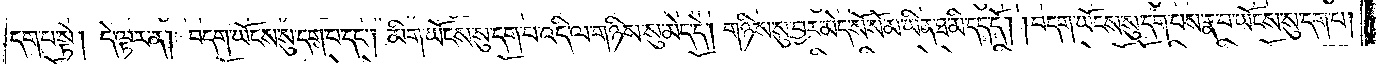དག་པ་སྟེ། དེ་ལྟར་ན། བདག་ཡོངས་སུ་དག་པ་དང༌། མིག་ཡོངས་སུ་དག་པ་འདི་ལ་གཉིས་སུ་མེད་དེ། གཉིས་སུ་བྱར་མེད་སོ་སོ་མ་ཡིན་ཐ་མི་དད་དོ། །བདག་ཡོངས་སུ་དག་པས་རྣ་བ་ཡོངས་སུ་དག་པ།
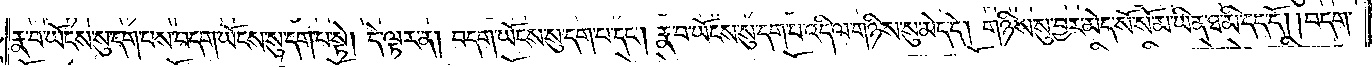རྣ་བ་ཡོངས་སུ་དག་པས་བདག་ཡོངས་སུ་དག་པ་སྟེ། དེ་ལྟར་ན། བདག་ཡོངས་སུ་དག་པ་དང༌། རྣ་བ་ཡོངས་སུ་དག་པ་འདི་ལ་གཉིས་སུ་མེད་དེ། གཉིས་སུ་བྱར་མེད་སོ་སོ་མ་ཡིན་ཐ་མི་དད་དོ། །བདག་
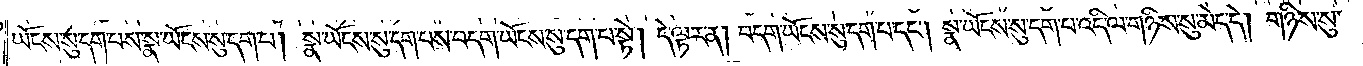ཡོངས་སུ་དག་པས་སྣ་ཡོངས་སུ་དག་པ། སྣ་ཡོངས་སུ་དག་པས་བདག་ཡོངས་སུ་དག་པ་སྟེ། དེ་ལྟར་ན། བདག་ཡོངས་སུ་དག་པ་དང༌། སྣ་ཡོངས་སུ་དག་པ་འདི་ལ་གཉིས་སུ་མེད་དེ། གཉིས་སུ་
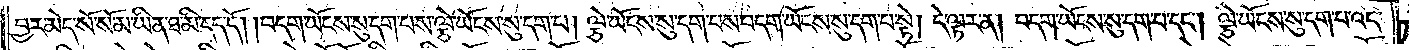བྱར་མེད་སོ་སོ་མ་ཡིན་ཐ་མི་དད་དོ། །བདག་ཡོངས་སུ་དག་པས་ལྕེ་ཡོངས་སུ་དག་པ། ལྕེ་ཡོངས་སུ་དག་པས་བདག་ཡོངས་སུ་དག་པ་སྟེ། དེ་ལྟར་ན། བདག་ཡོངས་སུ་དག་པ་དང༌། ལྕེ་ཡོངས་སུ་དག་པ་འདི་
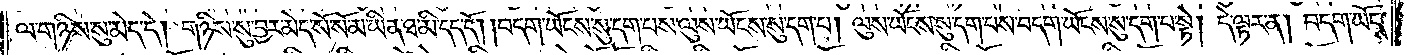ལ་གཉིས་སུ་མེད་དེ། གཉིས་སུ་བྱར་མེད་སོ་སོ་མ་ཡིན་ཐ་མི་དད་དོ། ། བདག་ཡོངས་སུ་དག་པས་ལུས་ཡོངས་སུ་དག་པ། ལུས་ཡོངས་སུ་དག་པས་བདག་ཡོངས་སུ་དག་པ་སྟེ། དེ་ལྟར་ན། བདག་ཡོངས་
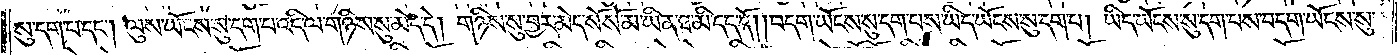སུ་དག་པ་དང༌། ལུས་ཡོངས་སུ་དག་པ་འདི་ལ་གཉིས་སུ་མེད་དེ། གཉིས་སུ་བྱར་མེད་སོ་སོ་མ་ཡིན་ཐ་མི་དད་དོ། །བདག་ཡོངས་སུ་དག་པས་ཡིད་ཡོངས་སུ་དག་པ། ཡིད་ཡོངས་སུ་དག་པས་བདག་ཡོངས་སུ་
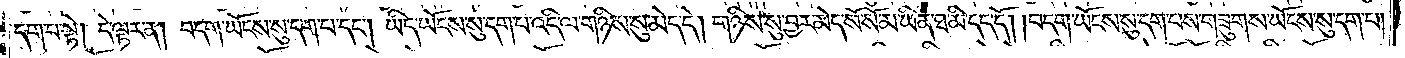དག་པ་སྟེ། དེ་ལྟར་ན། བདག་ཡོངས་སུ་དག་པ་དང༌། ཡིད་ཡོངས་སུ་དག་པ་འདི་ལ་གཉིས་སུ་མེད་དེ། གཉིས་སུ་བྱར་མེད་སོ་སོ་མ་ཡིན་ཐ་མི་དད་དོ། །བདག་ཡོངས་སུ་དག་པས་གཟུགས་ཡོངས་སུ་དག་པ།
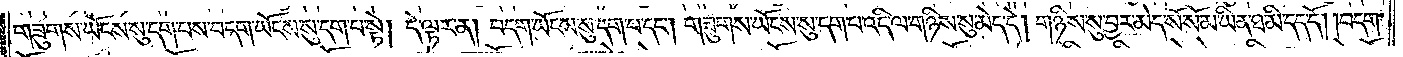གཟུགས་ཡོངས་སུ་དག་པས་བདག་ཡོངས་སུ་དག་པ་སྟེ། དེ་ལྟར་ན། བདག་ཡོངས་སུ་དག་པ་དང༌། གཟུགས་ཡོངས་སུ་དག་པ་འདི་ལ་གཉིས་སུ་མེད་དེ། གཉིས་སུ་བྱར་མེད་སོ་སོ་མ་ཡིན་ཐ་མི་དད་དོ། །བདག་
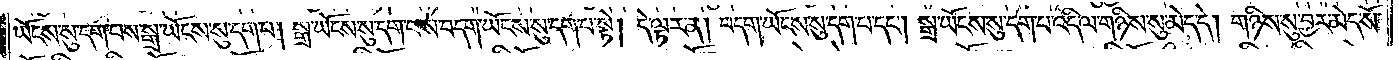ཡོངས་སུ་དག་པས་སྒྲ་ཡོངས་སུ་དག་པ། སྒྲ་ཡོངས་སུ་དག་པས་བདག་ཡོངས་སུ་དག་པ་སྟེ། དེ་ལྟར་ན། བདག་ཡོངས་སུ་དག་པ་དང༌། སྒྲ་ཡོངས་སུ་དག་པ་འདི་ལ་གཉིས་སུ་མེད་དེ། གཉིས་སུ་བྱར་མེད་སོ་
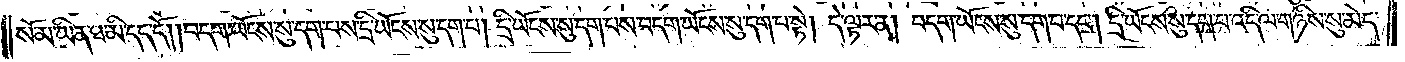སོ་མ་ཡིན་ཐ་མི་དད་དོ། །བདག་ཡོངས་སུ་དག་པས་དྲི་ཡོངས་སུ་དག་པ། དྲི་ཡོངས་སུ་དག་པས་བདག་ཡོངས་སུ་དག་པ་སྟེ། དེ་ལྟར་ན། བདག་ཡོངས་སུ་དག་པ་དང༌། དྲི་ཡོངས་སུ་དག་པ་འདི་ལ་གཉིས་སུ་མེད་
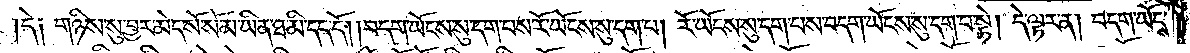དེ༑ གཉིས་སུ་བྱར་མེད་སོ་སོ་མ་ཡིན་ཐ་མི་དད་དོ། །བདག་ཡོངས་སུ་དག་པས་རོ་ཡོངས་སུ་དག་པ། རོ་ཡོངས་སུ་དག་པས་བདག་ཡོངས་སུ་དག་པ་སྟེ། དེ་ལྟར་ན། བདག་ཡོངས་
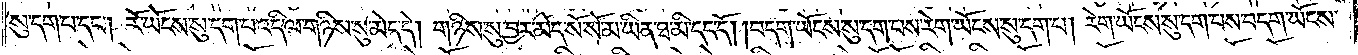སུ་དག་པ་དང༌། རོ་ཡོངས་སུ་དག་པ་འདི་ལ་གཉིས་སུ་མེད་དེ། གཉིས་སུ་བྱར་མེད་སོ་སོ་མ་ཡིན་ཐ་མི་དད་དོ། །བདག་ཡོངས་སུ་དག་པས་རེག་ཡོངས་སུ་དག་པ། རེག་ཡོངས་སུ་དག་པས་བདག་ཡོངས་
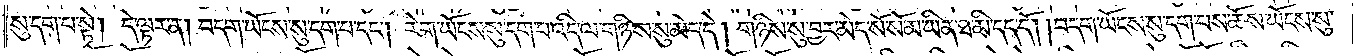སུ་དག་པ་སྟེ། དེ་ལྟར་ན། བདག་ཡོངས་སུ་དག་པ་དང༌། རེག་ཡོངས་སུ་དག་པ་འདི་ལ་གཉིས་སུ་མེད་དེ། གཉིས་སུ་བྱར་མེད་སོ་སོ་མ་ཡིན་ཐ་མི་དད་དོ། །བདག་ཡོངས་སུ་དག་པས་ཆོས་ཡོངས་སུ་
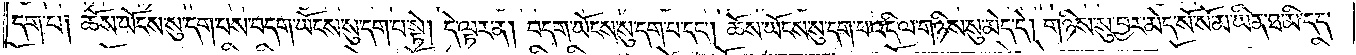དག་པ། ཆོས་ཡོངས་སུ་དག་པས་བདག་ཡོངས་སུ་དག་པ་སྟེ། དེ་ལྟར་ན། བདག་ཡོངས་སུ་དག་པ་དང༌། ཆོས་ཡོངས་སུ་དག་པ་འདི་ལ་གཉིས་སུ་མེད་དེ། གཉིས་སུ་བྱར་མེད་སོ་སོ་མ་ཡིན་ཐ་མི་དད་
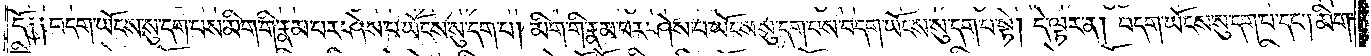དོ༑ ༑བདག་ཡོངས་སུ་དག་པས་མིག་གི་རྣམ་པར་ཤེས་པ་ཡོངས་སུ་དག་པ། མིག་གི་རྣམ་པར་ཤེས་པ་ཡོངས་སུ་དག་པས་བདག་ཡོངས་སུ་དག་པ་སྟེ། དེ་ལྟར་ན། བདག་ཡོངས་སུ་དག་པ་དང༌། མིག་
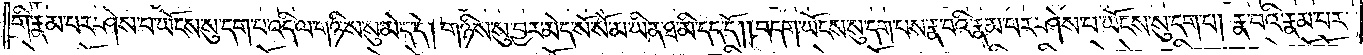གི་རྣམ་པར་ཤེས་པ་ཡོངས་སུ་དག་པ་འདི་ལ་གཉིས་སུ་མེད་དེ། གཉིས་སུ་བྱར་མེད་སོ་སོ་མ་ཡིན་ཐ་མི་དད་དོ། །བདག་ཡོངས་སུ་དག་པས་རྣ་བའི་རྣམ་པར་ཤེས་པ་ཡོངས་སུ་དག་པ། རྣ་བའི་རྣམ་པར་
